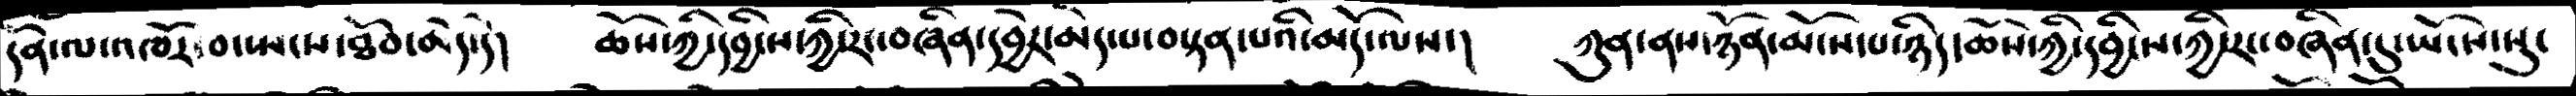དོན་ལ་འཁོར་བ་སྤངས་ཐོབ་མེད་དེ།    ཆོས་ཀྱི་དབྱིངས་ཀྱི་རང་བཞིན་དབྱེར་མེད་པ་བསྟན་པའི་མདོ་ལས་།    ཀུན་ནས་ཉོན་མོངས་པ་ཉིད་ཆོས་ཀྱི་དབྱིངས་ཀྱི་རང་བཞིན་དུ་ཡོངས་སུ་
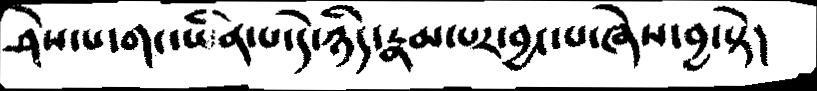ཤེས་པ་གང་ཡིན་པ་དེ་ཉིད་རྣམ་པར་བྱང་པ་ཞེས་བྱ་སྟེ།
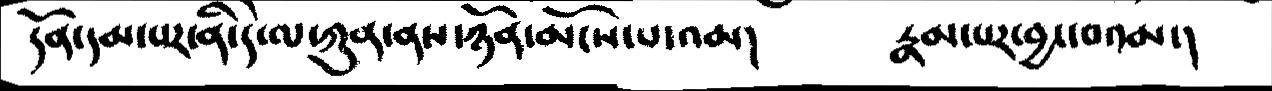དོན་དམ་པར་ནི་དེ་ལ་ཀུན་ནས་ཉོན་མོངས་པ་འམ།   རྣམ་པར་བྱང་བའམ་།
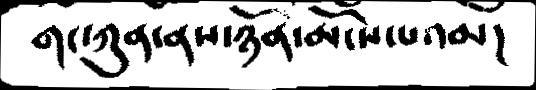གང་ཀུན་ནས་ཉོན་མོངས་པའམ།
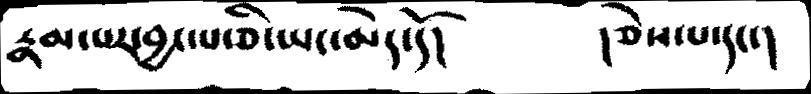རྣམ་པར་བྱང་པ་ཅི་ཡང་མེད་དོ།     །ཅེས་པ་དང་།
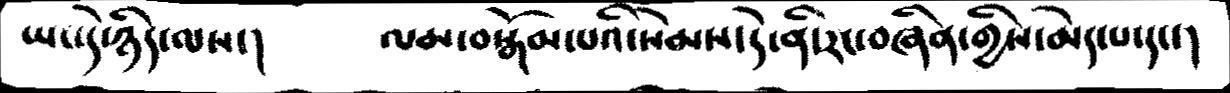ཡང་དེ་ཉིད་ལས་།     ལམ་བསྒོམ་པའི་སེམས་དེ་ནི་རང་བཞིན་གྱིས་མེད་པ་དང་།
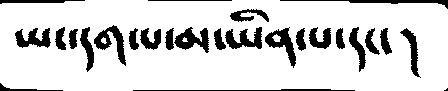ཡང་དག་པ་མ་ཡིན་པ་དང་།
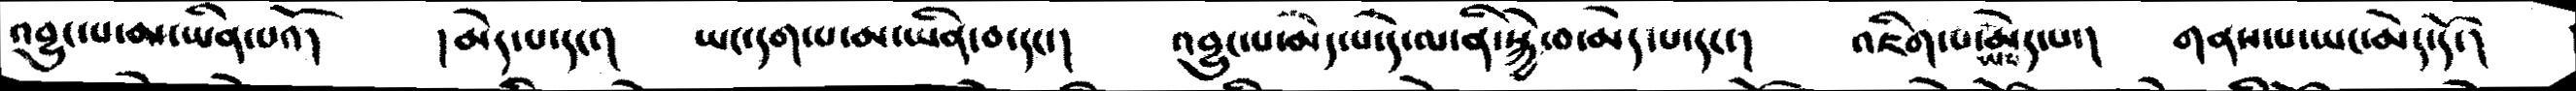འབྱུང་པ་མ་ཡིན་པའོ།   །མེད་པ་དང་།   ཡང་དག་པ་མ་ཡིན་བ་དང་།   འབྱུང་པ་མེདཔ་དེ་ལ་ནི་སྐྱེ་བ་མེད་པ་དང་།    འཇིག་པ་ཡང་མེད་པ་།   གནས་པ་ཡང་མེད་དོ་།
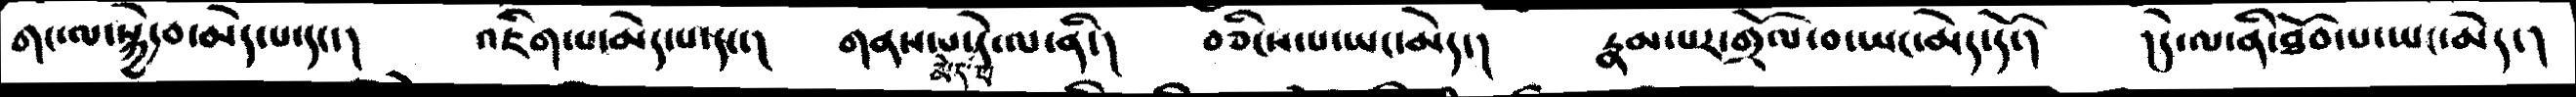གང་ལ་སྐྱེ་བ་མེད་པ་དང་།   འཇིག་པ་མེད་པ་དང་།  གནས་པ་མེད་པ་དེ་ལ་ནི་།   བཅིངས་པ་ཡང་མེད་།   རྣམ་པར་གྲོལ་བ་ཡང་མེད་དོ་།   །དེ་ལ་ནི་ཐོབ་པ་ཡང་མེད་།
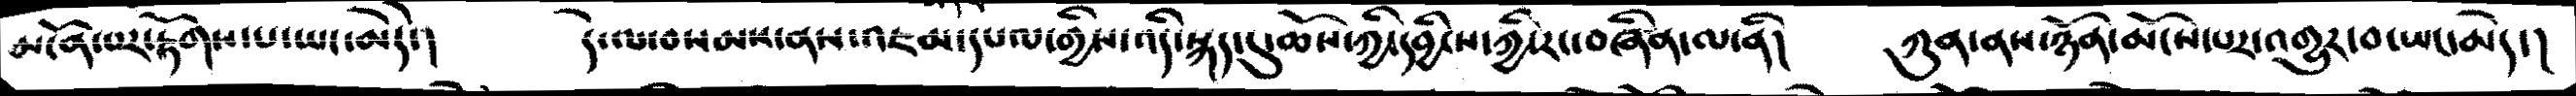མངོན་པར་རྟོགས་པ་ཡང་མེདེ་།    དེ་ལ་བསམས་ནས་འཇམ་དཔལ་གྱིས་འདི་སྐད་དུ་ཆོས་ཀྱི་དབྱིངས་ཀྱི་རང་བཞིན་ལ་ནི།    ཀུན་ནས་ཉོན་མོངས་པར་འགྱུར་བ་ཡང་མེད་།
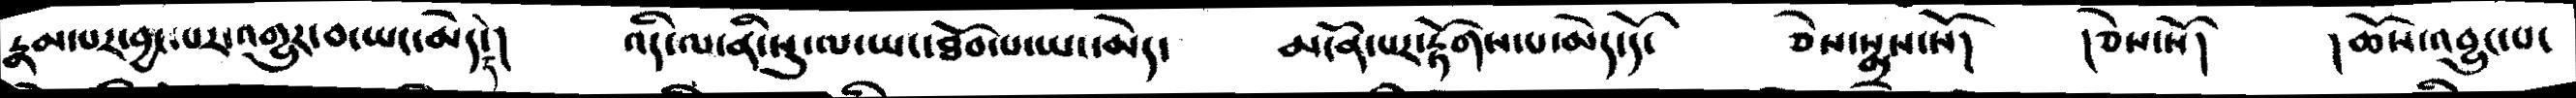རྣམ་པར་བྱང་པར་འགྱུར་བ་ཡང་མེད་དེ་།     འདི་ལ་ནི་སུ་ལ་ཡང་ཐོབ་པ་ཡང་མེད་    མངོན་པར་རྟོགས་པ་མེད་དོ་    ཅེས་སྨྲས་སོ།    །ཅེས་སོ།     །ཆོས་འབྱུང་པ་
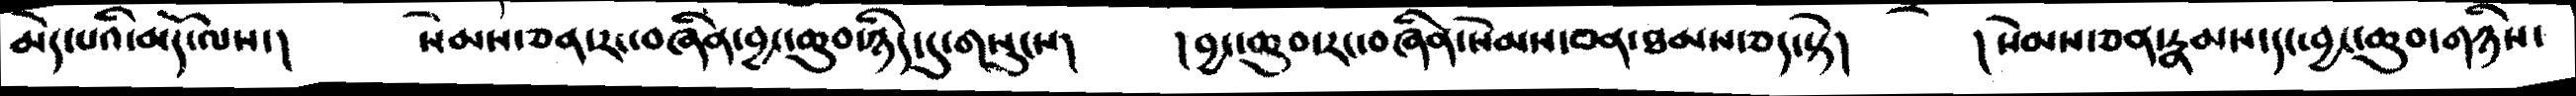མེད་པའི་མདོ་ལས་།    སེམས་ཅན་རང་བཞིན་བྱང་ཆུབ་ཉིད་དུ་གསུངས།    །བྱང་ཆུབ་རང་བཞིན་སེམས་ཅན་ཐམས་ཅད་སྟེ།      །སེམས་ཅན་རྣམས་དང་བྱང་ཆུབ་གཉིས་
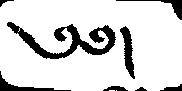༄༅།
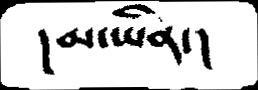།མ་ཡིན་།
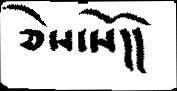ཅེས་སོ།།
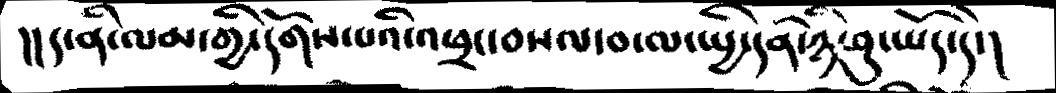།།ད་ནི་ལམ་གྱི་དགོས་པའི་འཕྲང་བསལ་བ་ལ་སྤྱི་དོན་ཉི་ཤུ་ཡོད་དེ་།
